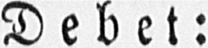Debet:
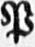P
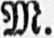M.
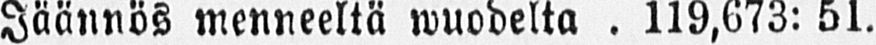Jäännös menneeltä wuodelta 119,673: 51.
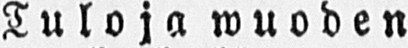Tuloja wuoden
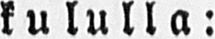kululla:
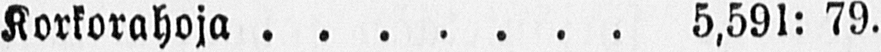Korkorahoja 5,591: 79.
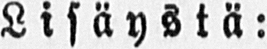Lisäystä:
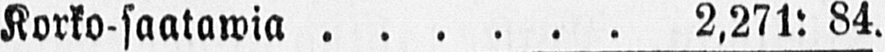Korko-saatawia 2,271: 84.
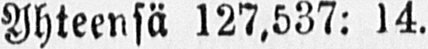Yhteensä 127,537: 14.
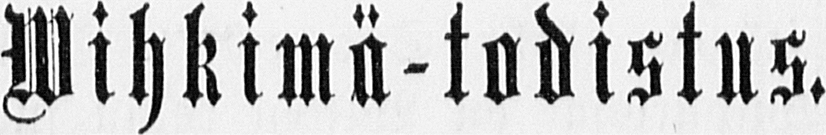Wihkimä-todistus.
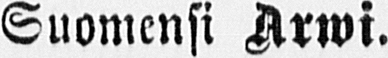Suomensi Arwi.
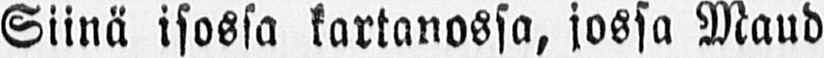Siinä isossa kartanossa, jossa Maud
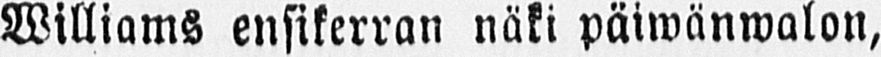Williams ensikerran näki päiwänwalon,
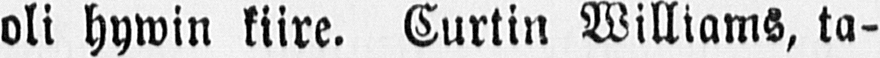oli hywin kiire. Curtin Williams, ta-
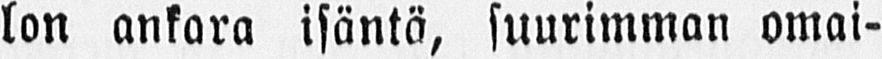lon ankara isäntä, suurimman omai-
